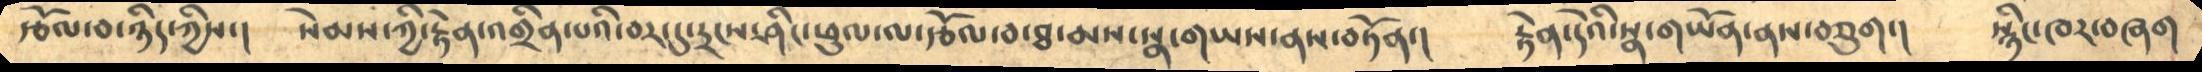རྩོལ་བ་ཉིད་ཀྱིས་།      སེམས་ཀྱི་རྟེན་འགྲིན་པའི་བར་དུ་དྲངས་ཤིང་ཕུལ་ལ་རྩོལ་བ་ཐ་མས་སྣ་གཡས་ནས་བཏོན་།     རྟེན་དེའི་སྣ་གཡོན་ནས་བཅུག་།     སྙིང་ཁར་བཞག
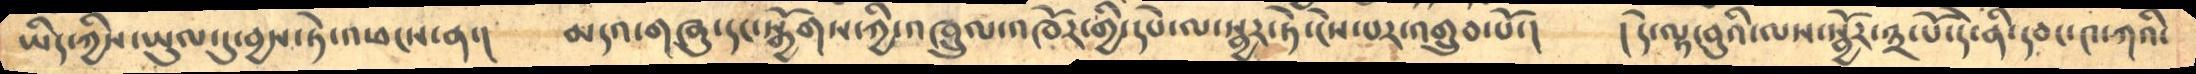ཡིད་ཀྱིས་ཡུལ་དུ་བྱས་ཏེ་འཕངས་ན་།       མདའ་གཞུ་དང་སྒྱོགས་ཀྱི་འཁྲུལ་འཁོར་གྱི་དཔེ་ལ་སྦྱར་ཏེ་ངེས་པར་འགྲུབ་པོ་།     །དེ་ལྟ་བུའི་ལས་སྦྱོར་༣་པོ་དེ་ནི་དབང་༤་ཀའི་
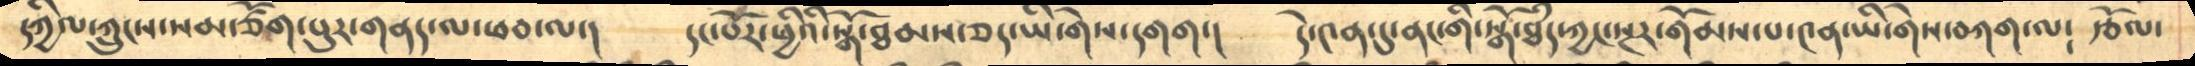དཀྱིལ་ཀྲུངས་སམ་ཙོག་པུར་གནད་ལ་ཕབ་ལ་།      དང་པོར་ཕྱིའི་སྒོ་ཐམས་ཅད་ཡི་གེས་དགག་།     དེ་༤ན་དུ་ནང་གི་སྒོ་ཐཾད་ཀྱང་སྔར་གོམས་པ་༤ན་ཡི་གེས་བཀག་ལ༴   རྩོལ་
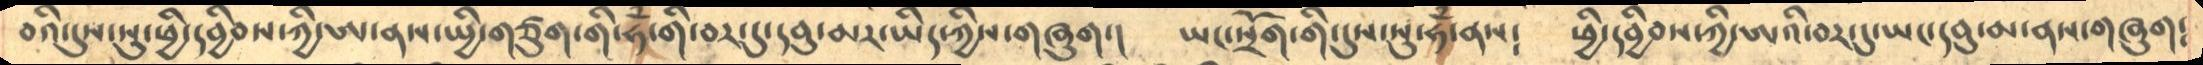བའི་དུས་སུ་ཕྱི་དབྱིབས་ཀྱི་ཨ་ནས་སྤྱི་གཙུག་གི་ཧཾ་གི་བར་དུ་དབུ་མར་ཡིད་ཀྱིས་གཞུག་།   ཡང་སྲོག་གི་དུས་སུ་ཧཾ་ནས༴    ཕྱི་དབྱིབས་ཀྱི་ཨའི་བར་དུ་ཡང་དབུ་མ་ནས་གཞུག༴
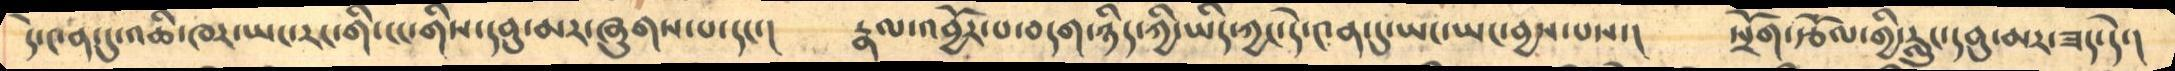དེ་༤ན་དུ་འཆི་ཁར་ཡང་རང་གི་ངང་གིས་དབུ་མར་ཞུགས་པ་དང་།      རྣལ་འབྱོར་པ་བདག་ཉིད་ཀྱི་ཡིད་ཀྱང་དེ་༤ན་དུ་ཡང་ཡང་བྱས་པས་།    སྲོག་རྩོལ་གྱི་རླུང་དབུ་མར་ཟད་དེ་།
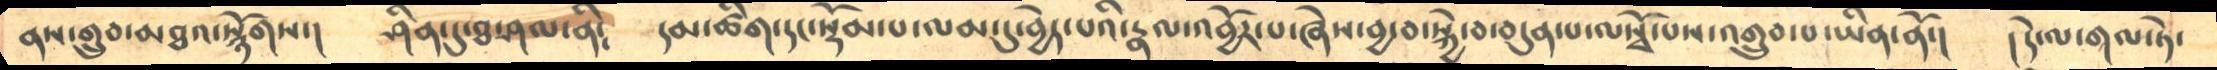ནས་གྲུབ་མཐའ་སྙོགས་།      ཤིན་དུ་ཐ་ཤལ་ནི༴      དམ་ཚིག་དང་སྡོམ་པ་ལམ་དུ་བྱེད་པའི་རྣལ་འབྱོར་པ་ཞེས་བྱ་བ་སྐྱེ་བ་བདུན་པ་ལསྭོ་པས་འགྲུབ་པ་ཡིན་ནོ་།   །དེ་ལ་གལ་ཏེ་
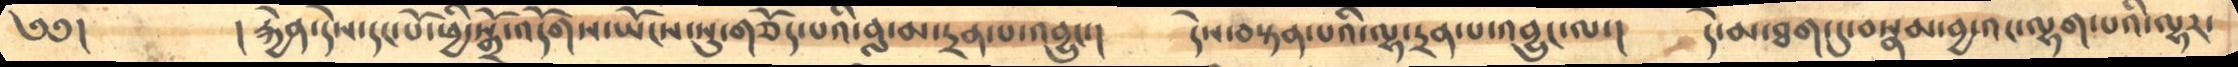༄༅།   །རྐྱེན་དེས་དང་པོ་ཕྱི་སྒྲོ་འདོགས་ཡོངས་སུ་གཅོད་པའི་བླ་མ་དྲན་པ་འབྱུང་། དེས་བསྟན་པའི་ལྷ་དྲན་པ་འབྱུང་ལ་། དེ་མ་ཐག་དུ་བསྣམ་བྱ་འང་ལྷག་པའི་ལྷར་
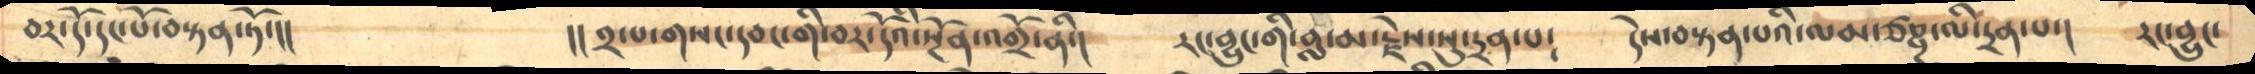བར་དོ་དང་པོ་བསྟན་ཏོ་།།       །།༢་པ་གསང་དབང་གི་བར་དོའི་སྔོན་འགྲོ་ནི་།  རང་བྱུང་གི་བླ་མ་རྗེས་སུ་ཏྲན་པ༴ དེས་བསྟན་པའི་ལམ་ཙཎྜ་ལི་དྲན་པ་། རང་བྱུང་
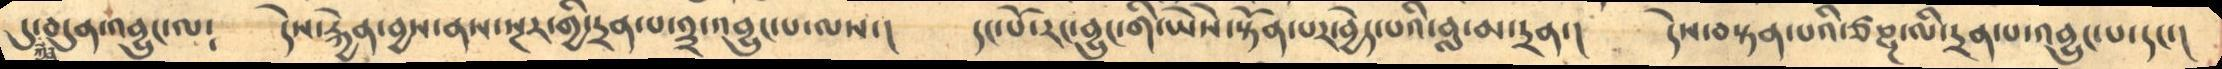དུ་བདུན་འབྱུང་ལ༴   དེས་རྐྱེན་བྱས་ནས་སྔར་གྱི་དྲན་པ་༣་འབྱུང་པ་ལས་།     དང་པོ་རང་བྱུང་གི་ཡཻས་སྟོན་པར་བྱེད་པའི་བླ་མ་དྲན་།     དེས་བསྟན་པའི་ཙཎྜ་ལི་དྲན་པ་འབྱུང་པ་དང་།
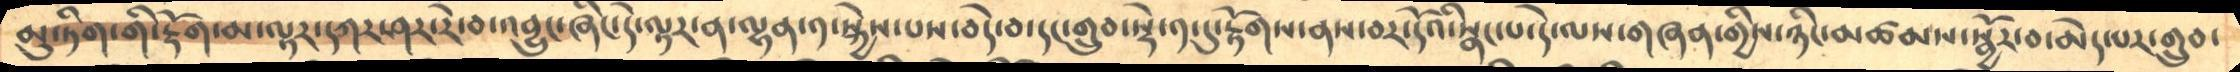མུ་ཏིག་གི་རྡོག་མ་ལྟར་དཀར་ཤར་རེ་བ་འབྱུང་ཞིང་དེ་ལྟར་ན་ལྷན་༡་སྐྱེས་པས་བདེ་བ་དང་གྲུབ་སྟེ་༡་དུ་རྟོགས་ནས་བར་དོའི་སྣང་པ་དེ་ལས་གཞན་གྱིས་ཉིང་མཚམས་སྦྱོར་བ་མེད་པར་གྲུབ་
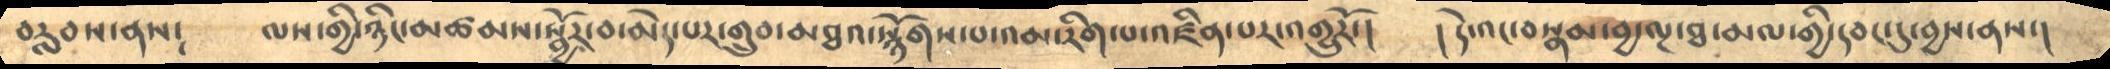བརླབས་ནས༴       ལས་ཀྱི་ཉིང་མཚམས་སྦྱོར་བ་མེད་པར་གྲུབ་མཐའ་སྙོགས་པ་འམ་རིག་པ་འཛིན་པར་འགྱུར་རོ་།     །དེ་འང་བསྣམ་བྱ་ལྔ་ཐ་མལ་གྱི་དབང་དུ་བྱས་ནས་།
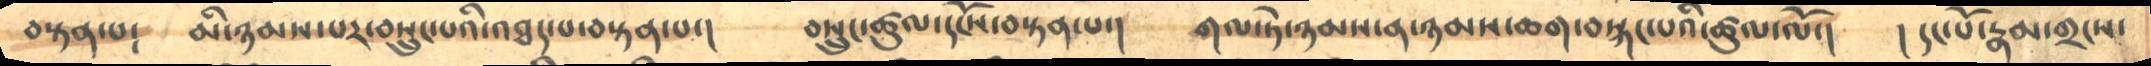བསྟན་པ༴     མི་ཉམས་པར་བསྲུང་པའི་འཐད་པ་བསྟན་པ་།      བསྲུང་ཚུལ་དངོས་བསྟན་པ་།      གལ་ཏེ་ཉམས་ན་ཉམས་ཆགས་བསྐང་པའི་ཚུལ་ལོ་།      །དང་པོ་རྣམ་གྲངས་
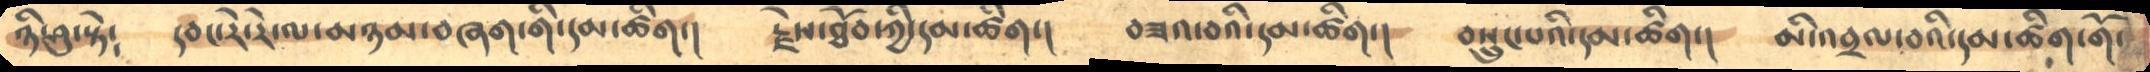ཉི་ཤུ་སྟེ༴       དབང་རེ་རེ་ལ་མཉམ་བཞག་གི་དམ་ཚིག་།      རྗེས་ཐོབ་ཀྱི་དམ་ཚིག་།      བཟའ་བའི་དམ་ཚིག་།     བསྲུང་པའི་དམ་ཚིག་།      མི་འབྲལ་བའི་དམ་ཚིག་གོ་
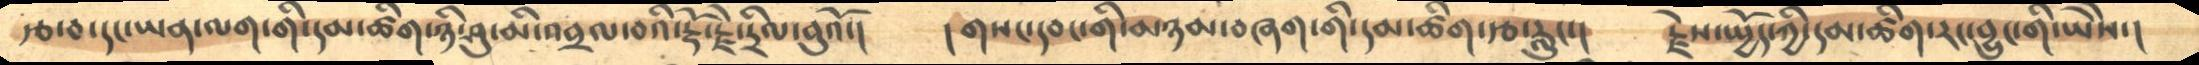རྩ་བ་དང་ཡན་ལག་གི་དམ་ཚིག་ཉི་ཤུ་མི་འབྲལ་བའི་རྡོ་རྗེ་དྲིལ་བུའོ་།       ། གསང་དབང་གི་མཉམ་བཞག་གི་དམ་ཚིག་རྩ་རླུང་།       རྗེས་སྤྱོད་ཀྱི་དམ་ཚིག་རང་བྱུང་གི་ཡཻས་།
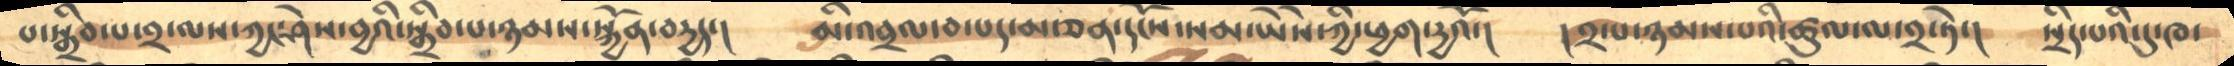པ་སྒྲིབ་པ་༢་ལས་ཀྱང་ཤེས་བྱའི་སྒྲིབ་པ་ཉམས་སྐྱོན་བདྱད་།་    མི་འབྲལ་བ་པད་མ་ཅན་དངོས་སམ་ཡཻས་ཀྱི་ཕྱག་དྱའོ་།   །༢་པ་ཉམས་པའི་ཚུལ་ལ་༢་ཏེ་།   སྲིད་པའི་དུ་ཁ་
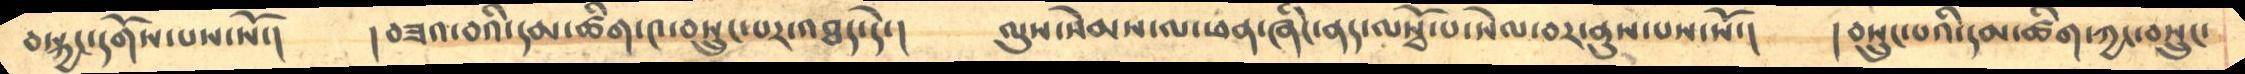བསྐྱང་དགོས་པས་སོ་།     །བཟའ་བའི་དམ་ཚིག་༤་བསྲུང་པར་འཐད་དེ་།      ལུས་སེམས་ལ་ཕན་ཞིང་ནད་ལསྭོ་པ་སེལ་བར་ནུས་པས་སོ་།    །བསྲུང་པའི་དམ་ཚིག་ཀྱང་བསྲུང་
